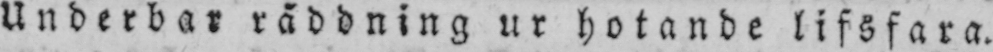Underbar räddning ur hotande lifsfara.
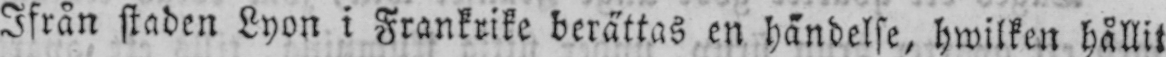Ifrån staden Lyon i Frankrike berättas en händelse, hwilken hållit
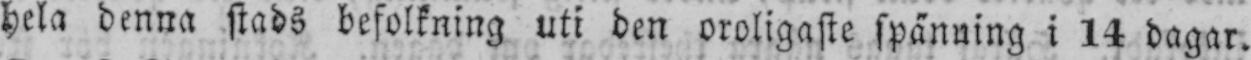hela denna stads befolkning uti den oroligaste spänning i 14 dagar.
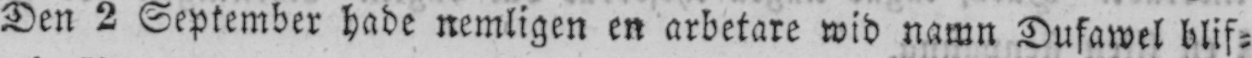Den 2 September hade nemligen en arbetare wid namn Dufawel blif-
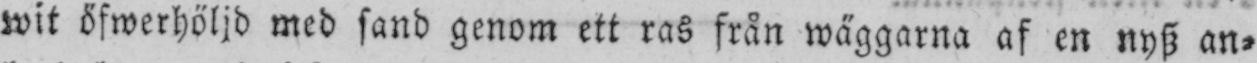wit öfwerhöljd med sand genom ett ras från wäggarna af en nysz an-
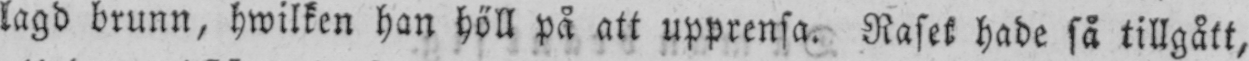lagd brunn, hwilken han höll på att upprensa. Raset hade så tillgått,
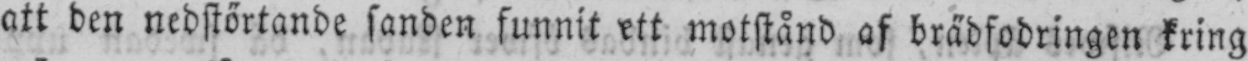att ben nedstörtande sanden funnit ett motstånd af brädfodringen kring
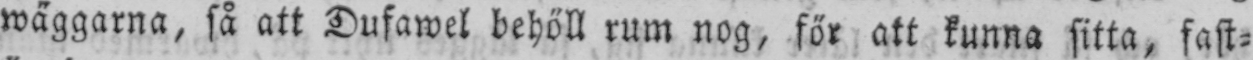wäggarna, så att Dufawel behöll rum nog, för att kunna sitta, fast-
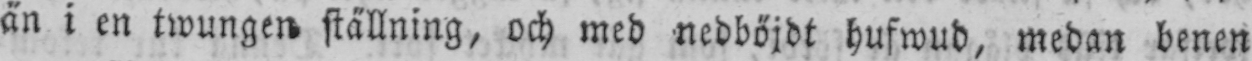än i en twungen ställning, och med nedböjdt hufwub, medan benen
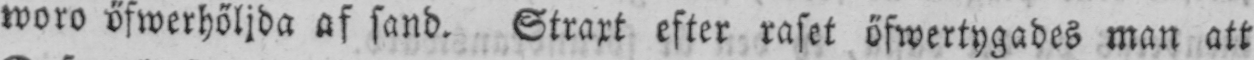woro öfwerhöljda af sand. Straxt efter raset öfwertygades man att
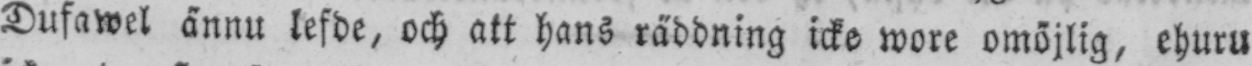Dufawel ännu lefde, och att hans räddning icke wore omöjlig, ehuru
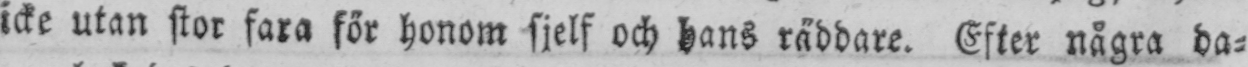icke utan stor fara för honom sjelf och hans räddare. Efter några da-
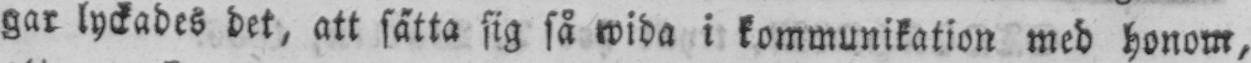gar lyckades det, att sätta sig så wida i kommunikation med honom,
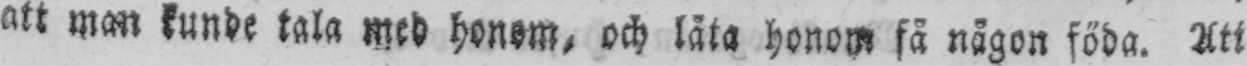att man kunde tala med honom, och låta honom få någon föda. Att
